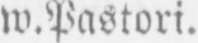w.Pastori.
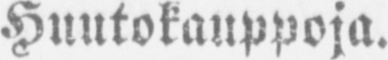Huutokauppoja.
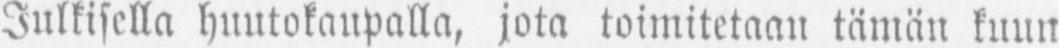Julkisella huutokaupalla, jota toimitetaan tämän kuun
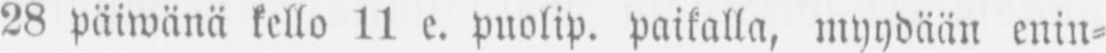28 päiwänä kello 11 e. puolip. paikalla, myydään enin-
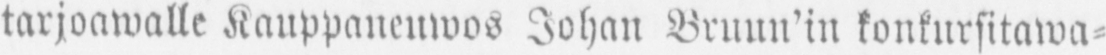tarjoawalle Kauppaneuwos Johan Bruun'in konkursitawa-
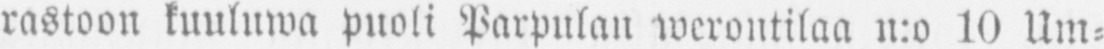rastoon kuuluwa puoli Parpulan werontilaa n:o 10 Um-
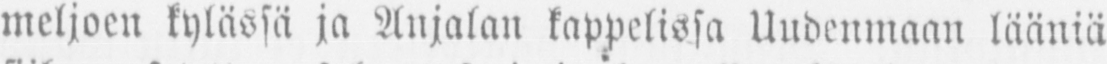meljoen kylässä ja Anjalan kappelissa Uudenmaan lääniä
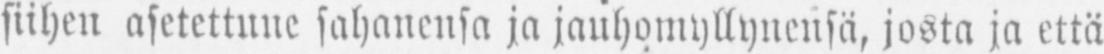siihen asetettune sahanensa ja jauhomyllynensä, josta ja että
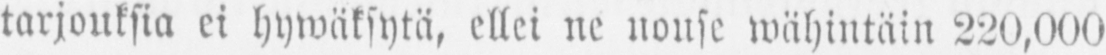tarjouksia ei hywäksytä, ellei ne nouse wähintäin 220,000
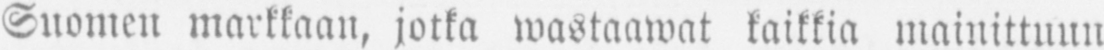Suomen markkaan, jotka wastaawat kaikkia mainittuun
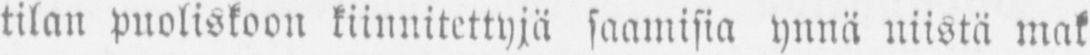tilan puoliskoon kiinnitettyjä saamisia ynnä niistä mak-
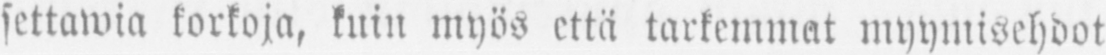settawia korkoja, kuin myös että tarkemmat myymisehdot
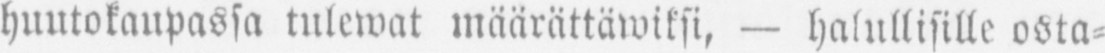huutokaupassa tulewat määrättäwiksi, — halullisille osta-
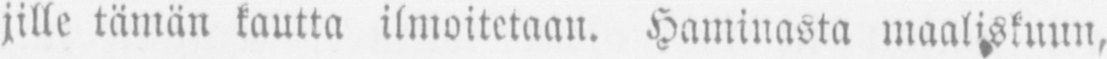jille tämän kautta ilmoitetaan. Haminasta maaliskuun,
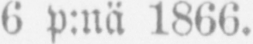6 p:nä 1866.
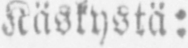Käskystä:
